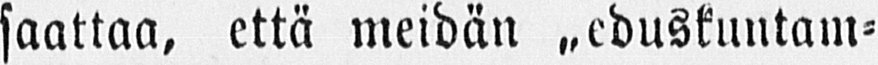saattaa, että meidän ˶eduskuntam-
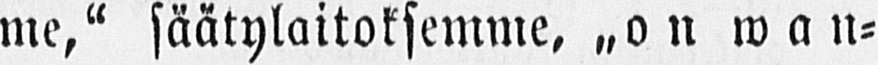me," säätylaitoksemme, ˶on wan-
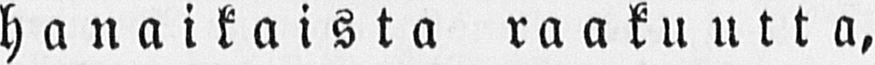hanaikaista raakuutta,
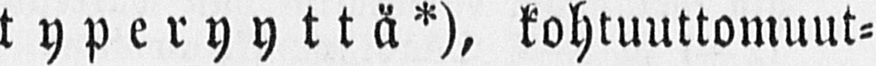typeryyttä*), kohtuuttomuut-
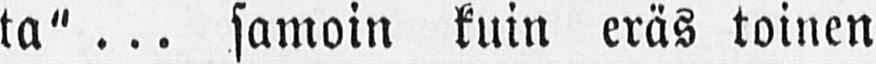ta"... samoin kuin eräs toinen
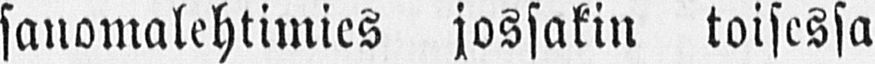sanomalehtimies jossakin toisessa
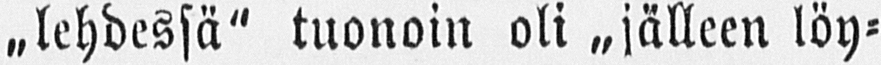˶lehdessä" tuonoin oli ˶jälleen löy-
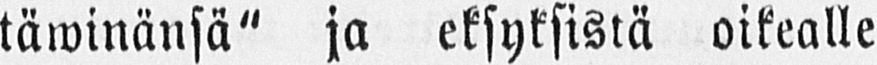täwinänsä" ja eksyksistä oikealle
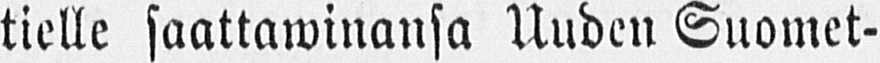tielle saattawinansa Uuden Suomet-
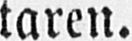taren.
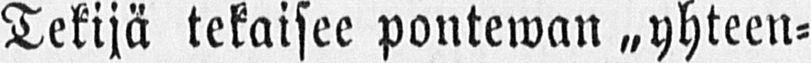Tekijä tekaisee pontewan ˶yhteen-
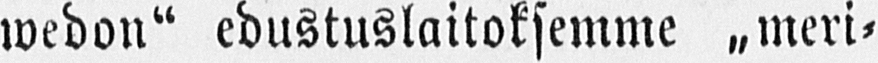wedon" edustuslaitoksemme ˶meri-
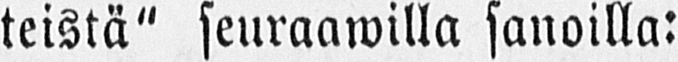teistä" seuraawilla sanoilla:
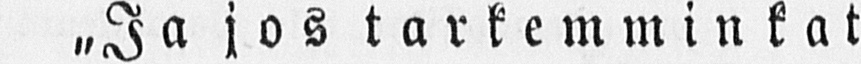˶Ja jos tarkemmin kat
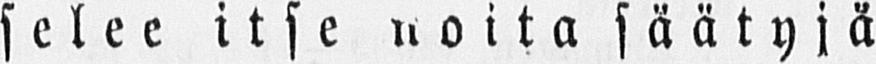selee itse noita säätyjä
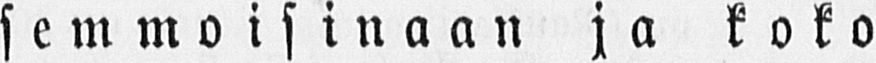semmoisinaan ja koko
